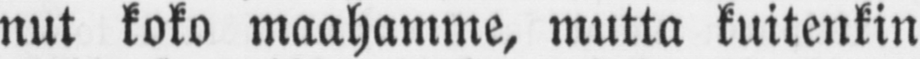nut koko maahamme, mutta kuitenkin
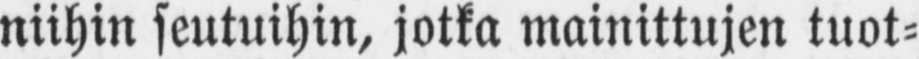niihin seutuihin, jotka mainittujen tuot-
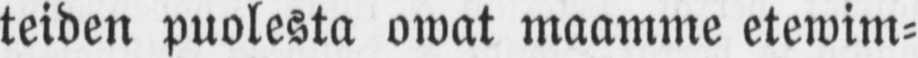teiden puolesta owat maamme etewim-
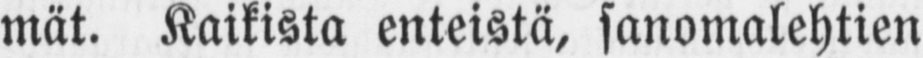mät. Kaikista enteistä, sanomalehtien
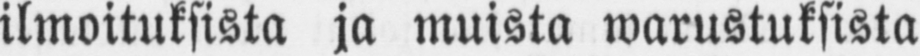ilmoituksista ja muista warustuksista
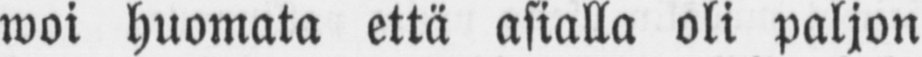woi huomata että asialla oli paljon
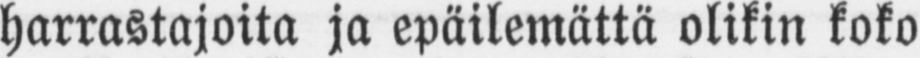harrastajoita ja epäilemättä olikin koko
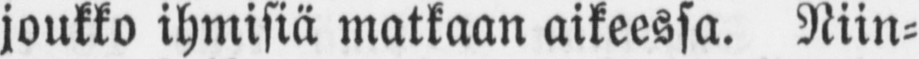joukko ihmisiä matkaan aikeessa. Niin-
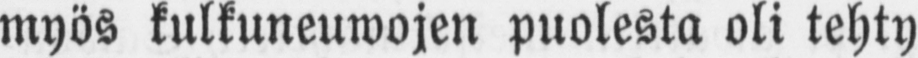myös kulkuneuwojen puolesta oli tehty
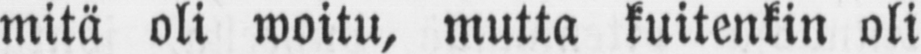mitä oli woitu, mutta kuitenkin oli
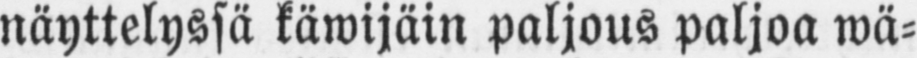näyttelyssä käwijäin paljous paljoa wä-
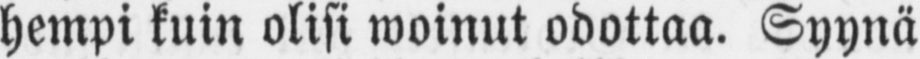hempi kuin olisi woinut odottaa. Syynä
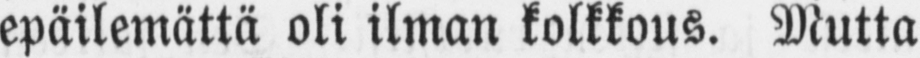epäilemättä oli ilman kolkkous. Mutta
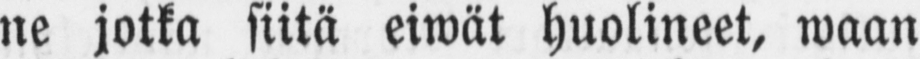ne jotka siitä eiwät huolineet, waan
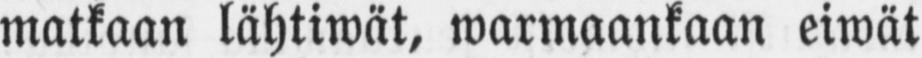matkaan lähtiwät, wannaankaan eiwät
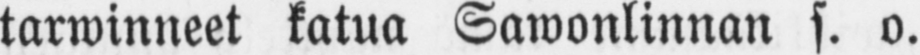tarwinneet katua Sawonlinnan s. o.
